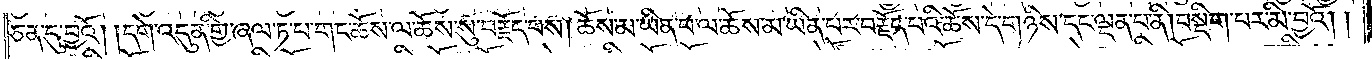ཅན་དུ་བྱའོ། །དགེ་འདུན་གྱི་ཞལ་ཏ་པ་གང་ཆོས་ལ་ཆོས་སུ་བརྗོད་པས། ཆོས་མ་ཡིན་པ་ལ་ཆོས་མ་ཡིན་པར་བརྗོད་པའི་ཆོས་དེ་གཉིས་དང་ལྡན་པ་ནི། བསྡིག་པར་མི་བྱའོ། །
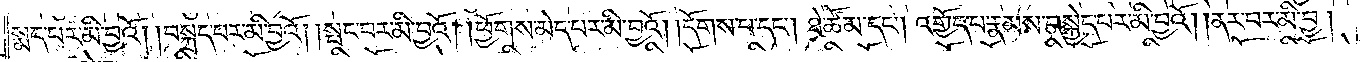སྨད་པར་མི་བྱའོ། །བསྐྲད་པར་མི་བྱའོ། །སྤང་བར་མི་བྱའོ། །ཕྱོགས་མེད་པར་མི་བྱའོ། །དོགས་པ་དང༌། ཐེ་ཚོམ་དང༌། འགྱོད་པ་རྣམས་བསྐྱེད་པར་མི་བྱའོ། །ནར་བར་མི་བྱ།
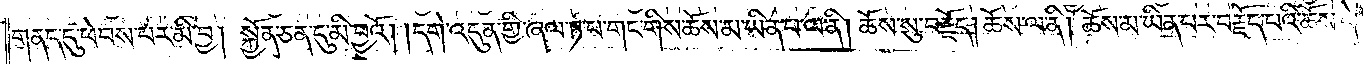གནད་དུ་ཕེབས་པར་མི་བྱ། སྐྱོན་ཅན་དུ་མི་བྱའོ། །དགེ་འདུན་གྱི་ཞལ་ཏ་པ་གང་གིས་ཆོས་མ་ཡིན་པ་ལ་ནི། ཆོས་སུ་བརྗོད། ཆོས་ལ་ནི། ཆོས་མ་ཡིན་པར་བརྗོད་པའི་ཆོས་དེ་
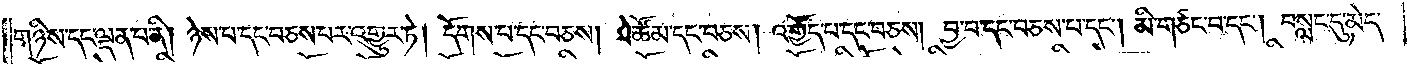གཉིས་དང་ལྡན་པ་ནི། ཉེས་པ་དང་བཅས་པར་འགྱུར་ཏེ། དོགས་པ་དང་བཅས། ཐེ་ཚོམ་དང་བཅས། འགྱོད་པ་དང་བཅས། བྱ་བ་དང་བཅས་པ་དང༌། མི་གཙང་བ་དང༌། བསླང་དུ་མེད་
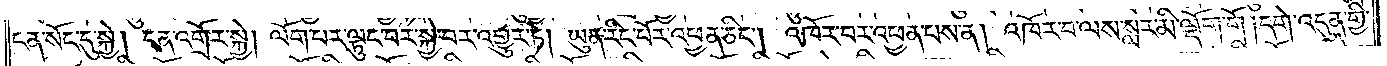ངན་སོང་དུ་སྐྱེ། ངན་འགྲོར་སྐྱེ། ལོག་པར་ལྟུང་བར་སྐྱེ་བར་འགྱུར་ཏེ། ཡུན་རིང་པོར་འཕྱན་ཅིང༌། འཁོར་བར་འཕྱན་པས་ན། འཁོར་བ་ལས་སླར་མི་ལྡོག་གོ །དགེ་འདུན་གྱི་
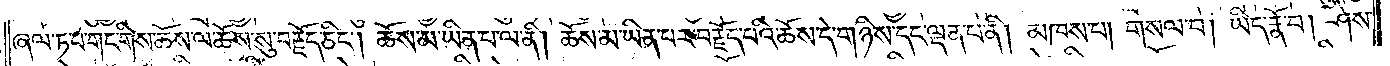ཞལ་ཏ་པ་གང་གིས་ཆོས་ལ་ཆོས་སུ་བརྗོད་ཅིང༌། ཆོས་མ་ཡིན་པ་ལ་ནི། ཆོས་མ་ཡིན་པར་བརྗོད་པའི་ཆོས་དེ་གཉིས་དང་ལྡན་པ་ནི། མཁས་པ། གསལ་བ། ཡིད་རྣོ་བ། ཤེས་
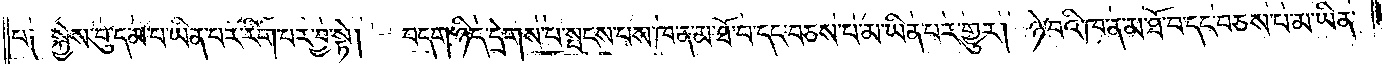པ༑ སྐྱེས་བུ་དམ་པ་ཡིན་པར་རིག་པར་བྱ་སྟེ། བདག་ཉིད་དྲེགས་པ་སྤངས་པས་ཁ་ན་མ་ཐོ་བ་དང་བཅས་པ་མ་ཡིན་པར་གྱུར། ཉེ་བའི་ཁ་ན་མ་ཐོ་བ་དང་བཅས་པ་མ་ཡིན་
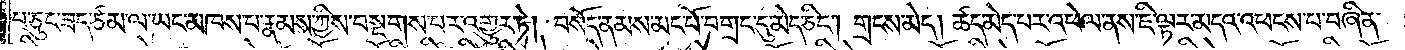པ་ཅུང་ཟད་ཙམ་ལ་ཡང་མཁས་པ་རྣམས་ཀྱིས་བསྔགས་པར་འགྱུར་ཏེ། བསོད་ནམས་མང་པོ་བགྲང་དུ་མེད་ཅིང༌། གྲངས་མེད། ཚད་མེད་པར་འཕེལ་ནས་ཇི་ལྟར་མདའ་འཕངས་པ་བཞིན་
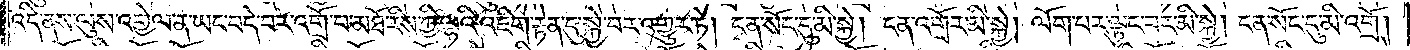འདི་ནས་ལུས་འགྱེལ་ན་ཡང་བདེ་བར་འགྲོ་བ་མཐོ་རིས་ཀྱི་ལྷའི་འཇིག་རྟེན་དུ་སྐྱེ་བར་འགྱུར་ཏེ། ངན་སོང་དུ་མི་སྐྱེ། ངན་འགྲོར་མི་སྐྱེ། ལོག་པར་ལྟུང་བར་མི་སྐྱེ། ངན་སོང་དུ་མི་འགྲོ།
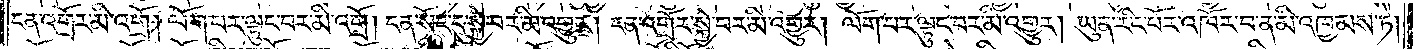ངན་འགྲོར་མི་འགྲོ། ལོག་པར་ལྟུང་བར་མི་འགྲོ། ངན་སོང་དུ་སྐྱེ་བར་མི་འགྱུར། ངན་འགྲོར་སྐྱེ་བར་མི་འགྱུར། ལོག་པར་ལྟུང་བར་མི་འགྱུར། ཡུན་རིང་པོར་འཁོར་བ་ན་མི་འཁྱམས་ཏེ།
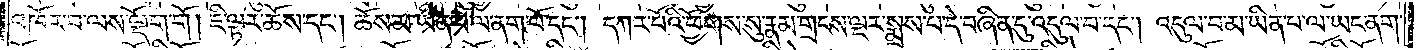འཁོར་བ་ལས་ལྡོག་གོ །ཇི་ལྟར་ཆོས་དང༌། ཆོས་མ་ཡིན་པ་ལ་ནག་པོ་དང༌། དཀར་པོའི་ཕྱོགས་སུ་རྣམ་གྲངས་ལྔར་སྨྲས་པ་དེ་བཞིན་དུ་འདུལ་བ་དང༌། འདུལ་བ་མ་ཡིན་པ་ལ་ཡང་ནག་
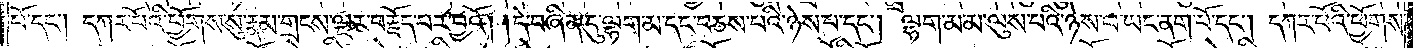པོ་དང༌། དཀར་པོའི་ཕྱོགས་སུ་རྣམ་གྲངས་ལྔར་བརྗོད་པར་བྱའོ། །དེ་བཞིན་དུ་ལྷག་མ་དང་བཅས་པའི་ཉེས་པ་དང༌། ལྷག་མ་མ་ལུས་པའི་ཉེས་པ་ཡང་ནག་པོ་དང༌། དཀར་པོའི་ཕྱོགས་
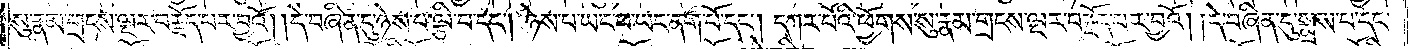སུ་རྣམ་གྲངས་ལྔར་བརྗོད་པར་བྱའོ། །དེ་བཞིན་དུ་ཉེས་པ་ལྕི་བ་དང༌། ཉེས་པ་ཡང་བ་ཡང་ནག་པོ་དང༌། དཀར་པོའི་ཕྱོགས་སུ་རྣམ་གྲངས་ལྔར་བརྗོད་པར་བྱའོ། །དེ་བཞིན་དུ་སྨྲས་པ་དང༌།
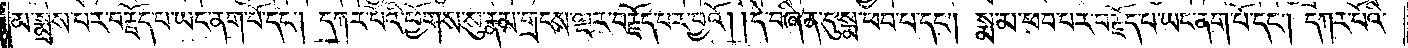མ་སྨྲས་པར་བརྗོད་པ་ཡང་ནག་པོ་དང༌། དཀར་པོའི་ཕྱོགས་སུ་རྣམ་གྲངས་ལྔར་བརྗོད་པར་བྱའོ། །དེ་བཞིན་དུ་སྨ་ཕབ་པ་དང༌། སྨ་མ་ཕབ་པར་བརྗོད་པ་ཡང་ནག་པོ་དང༌། དཀར་པོའི་
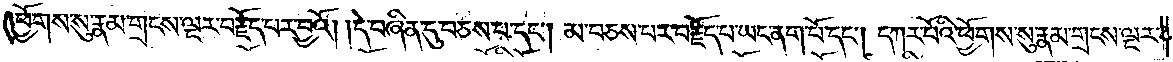ཕྱོགས་སུ་རྣམ་གྲངས་ལྔར་བརྗོད་པར་བྱའོ། །དེ་བཞིན་དུ་བཅས་པ་དང༌། མ་བཅས་པར་བརྗོད་པ་ཡང་ནག་པོ་དང༌། དཀར་པོའི་ཕྱོགས་སུ་རྣམ་གྲངས་ལྔར་
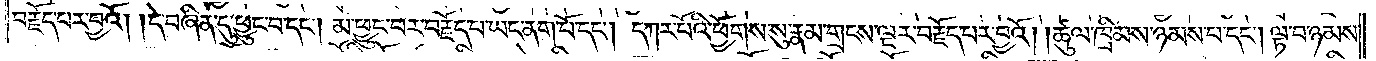བརྗོད་པར་བྱའོ། །དེ་བཞིན་དུ་ཕྱུང་བ་དང༌། མ་ཕྱུང་བར་བརྗོད་པ་ཡང་ནག་པོ་དང༌། དཀར་པོའི་ཕྱོགས་སུ་རྣམ་གྲངས་ལྔར་བརྗོད་པར་བྱའོ། །ཚུལ་ཁྲིམས་ཉམས་པ་དང༌། ལྟ་བ་ཉམས་
